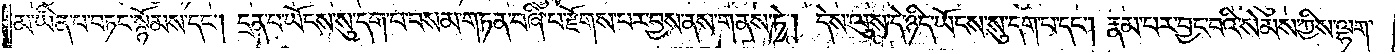མ་ཡིན་པ་བཏང་སྙོམས་དང༌། དྲན་པ་ཡོངས་སུ་དག་པ་བསམ་གཏན་བཞི་པ་རྫོགས་པར་བྱས་ནས་གནས་ཏེ། དེས་ལུས་དེ་ཉིད་ཡོངས་སུ་དག་པ་དང༌། རྣམ་པར་བྱང་བའི་སེམས་ཀྱིས་ལྷག་
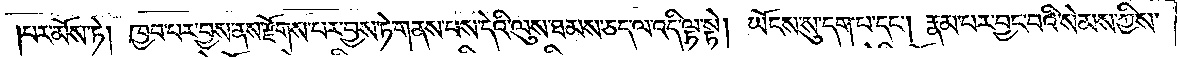།པར་མོས་ཏེ། ཁྱབ་པར་བྱས་ནས་རྫོགས་པར་བྱེས་ཏེ་གནས་པས་དེའི་ལུས་ཐམས་ཅད་ལ་འདི་ལྟ་སྟེ། ཡོངས་སུ་དག་པ་དང༌། རྣམ་པར་བྱང་བའི་སེམས་ཀྱིས་
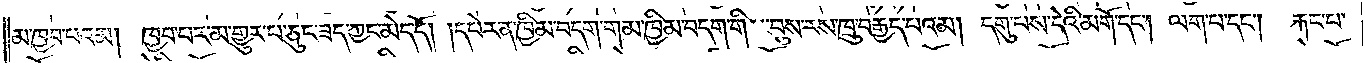མ་ཁྱབ་པའམ། ཁྱབ་པར་མ་གྱུར་པ་ཅུང་ཟད་ཀྱང་མེད་དོ། །དཔེར་ན་ཁྱིམ་བདག་གམ་ཁྱིམ་བདག་གི་བུས་རས་ཁྲུ་བརྒྱད་པའམ། དགུ་པས་དེའི་མགོ་དང༌། ལག་པ་དང༌། རྐང་པ་
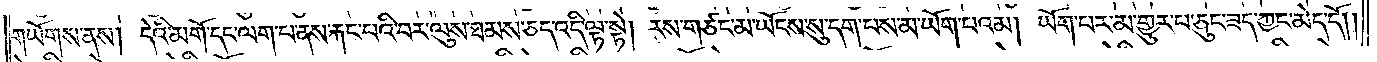གཡོགས་ནས། དེའི་མགོ་དང་ལག་པ་ནས་རྐང་པའི་བར་ལུས་ཐམས་ཅད་འདི་ལྟ་སྟེ། རས་གཙང་མ་ཡོངས་སུ་དག་པས་མ་ཡོག་པའམ། ཡོག་པར་མ་གྱུར་པ་ཅུང་ཟད་ཀྱང་མེད་དོ། །
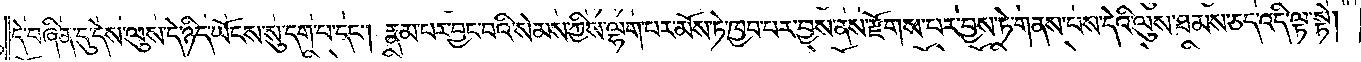དེ་བཞིན་དུ་དེས་ལུས་དེ་ཉིད་ཡོངས་སུ་དག་པ་དང༌། རྣམ་པར་བྱང་བའི་སེམས་ཀྱིས་ལྷག་པར་མོས་ཏེ་ཁྱབ་པར་བྱས་ནས་རྫོགས་པར་བྱས་ཏེ་གནས་པས་དེའི་ལུས་ཐམས་ཅད་འདི་ལྟ་སྟེ།
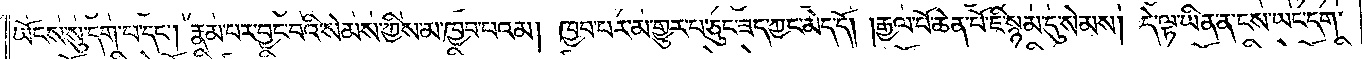ཡོངས་སུ་དག་པ་དང༌། རྣམ་པར་བྱང་བའི་སེམས་ཀྱིས་མ་ཁྱབ་པའམ། ཁྱབ་པར་མ་གྱུར་པ་ཅུང་ཟད་ཀྱང་མེད་དོ། །རྒྱལ་པོ་ཆེན་པོ་ཇི་སྙམ་དུ་སེམས། དེ་ལྟ་ཡིན་ན་ངས་ཡང་དག་
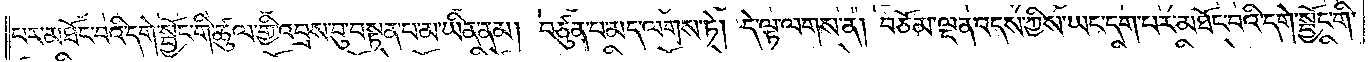པར་མཐོང་བའི་དགེ་སྦྱོང་གི་ཚུལ་གྱི་འབྲས་བུ་བསྟན་པ་མ་ཡིན་ནམ། བཙུན་པ་མད་ལགས་ཏེ། དེ་ལྟ་ལགས་ན། བཅོམ་ལྡན་འདས་ཀྱིས་ཡང་དག་པར་མཐོང་བའི་དགེ་སྦྱོང་གི་
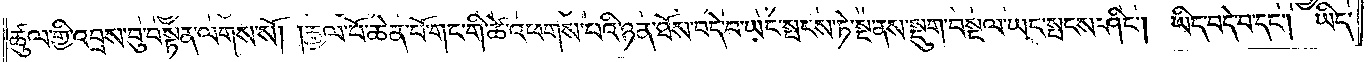ཚུལ་གྱི་འབྲས་བུ་བསྟན་ལགས་སོ། །རྒྱལ་པོ་ཆེན་པོ་གང་གི་ཚེ་འཕགས་པའི་ཉན་ཐོས་བདེ་བ་ཡང་སྤངས་ཏེ་སྔ་ནས་སྡུག་བསྔལ་ཡང་སྤངས་ཤིང༌། ཡིད་བདེ་བ་དང༌། ཡིད་
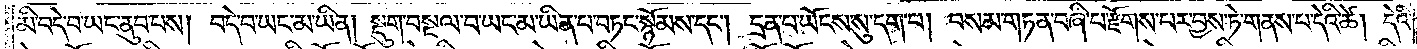མི་བདེ་བ་ཡང་ནུབ་པས། བདེ་བ་ཡང་མ་ཡིན། སྡུག་བསྔལ་བ་ཡང་མ་ཡིན་པ་བཏང་སྙོམས་དང༌། དྲན་པ་ཡོངས་སུ་དག་པ། བསམ་གཏན་བཞི་པ་རྫོགས་པར་བྱས་ཏེ་གནས་པ་དེའི་ཚེ། དེའི་
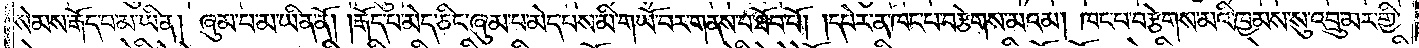སེམས་རྒོད་པ་མ་ཡིན། ཞུམ་པ་མ་ཡིན་ནོ། །རྒོད་པ་མེད་ཅིང་ཞུམ་པ་མེད་པས་མི་གཡོ་བར་གནས་པ་ཐོབ་པོ། །དཔེར་ན་ཁང་པ་བརྩེགས་མའམ། ཁང་པ་བརྩེགས་མའི་ཁྱམས་སུ་འབྲུ་མར་གྱི་
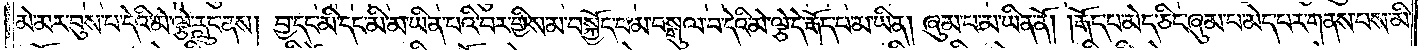མེ་མར་བུས་པ་དེའི་མེ་ལྕེ་རླུང་ནས། བྱ་དང་མི་དང་མི་མ་ཡིན་པའི་བར་གྱིས་མ་བསྐྱོད་པ་མ་བསྒུལ་བ་དེའི་མེ་ལྕེ་དེ་རྒོད་པ་མ་ཡིན། ཞུམ་པ་མ་ཡིན་ནོ། །རྒོད་པ་མེད་ཅིང་ཞུམ་པ་མེད་པར་གནས་པས་མི་
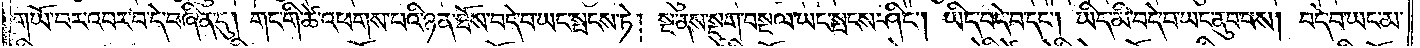གཡོ་བར་འབར་བ་དེ་བཞིན་དུ། གང་གི་ཚེ་འཕགས་པའི་ཉན་ཐོས་བདེ་བ་ཡང་སྤངས་ཏེ། སྔ་ནས་སྡུག་བསྔལ་ཡང་སྤངས་ཤིང༌། ཡིད་བདེ་བ་དང༌། ཡིད་མི་བདེ་བ་ཡང་ནུབ་པས། བདེ་བ་ཡང་མ་
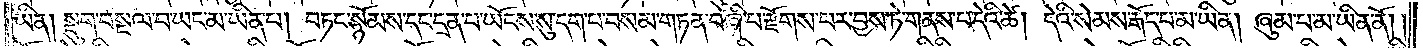ཡིན། སྡུག་བསྔལ་བ་ཡང་མ་ཡིན་པ། བཏང་སྙོམས་དང་དྲན་པ་ཡོངས་སུ་དག་པ་བསམ་གཏན་བཞི་པ་རྫོགས་པར་བྱས་ཏེ་གནས་པ་དེའི་ཚེ། དེའི་སེམས་རྒོད་པ་མ་ཡིན། ཞུམ་པ་མ་ཡིན་ནོ། །
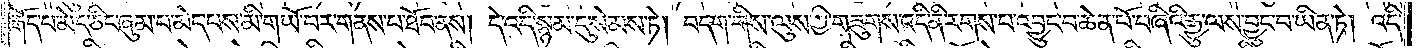རྒོད་པ་མེད་ཅིང་ཞུམ་པ་མེད་པས་མི་གཡོ་བར་གནས་པ་ཐོབ་ནས། དེ་འདི་སྙམ་དུ་སེམས་ཏེ། བདག་གིས་ལུས་ཀྱི་གཟུགས་འདི་ནི་རགས་པ་འབྱུང་བ་ཆེན་པོ་བཞིའི་རྒྱུ་ལས་བྱུང་པ་ཡིན་ཏེ། འདི་
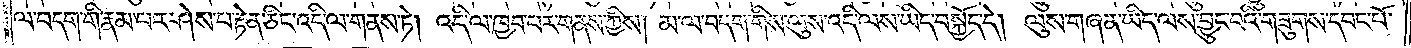ལ་བདག་གི་རྣམ་པར་ཤེས་པ་རྟེན་ཅིང་འདི་ལ་གནས་ཏེ། འདི་ལ་ཁྱབ་པར་གནས་ཀྱིས། མ་ལ་བདག་གིས་ལུས་འདི་ལས་ཡིད་བསྐྱོད་དེ། ལུས་གཞན་ཡིད་ལས་བྱུང་བའི་གཟུགས་དབང་པོ་
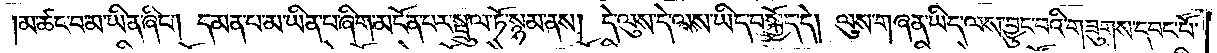མཚང་བ་མ་ཡིན་ཞིང༌། དམན་པ་མ་ཡིན་པ་ཞིག་མངོན་པར་སྤྲུལ་ཏོ་སྙམ་ནས། དེ་ལུས་དེ་ལས་ཡིད་བསྐྱོད་དེ། ལུས་གཞན་ཡིད་ལས་བྱུང་བའི་གཟུགས་དབང་པོ་
